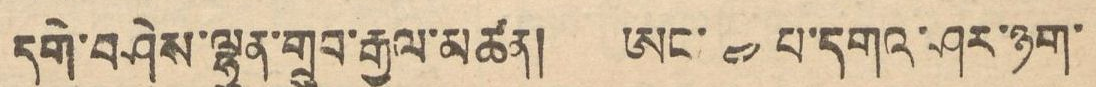དེག་བཤེས་ལྷུན་གྲུབ་རྒྱལ་མཚན། ཨང་ ༤ པ་དགའ་ཤར་ཉག་
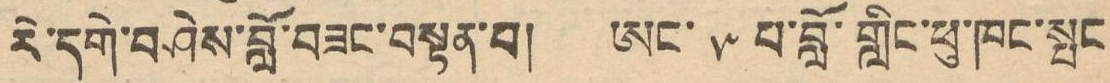རེ་དགེ་བཤེས་བློ་བཟང་བསྟན་བ། ཨང་ ༥ པ་བློ་གླིང་ཕུ་ཁང་སྤང
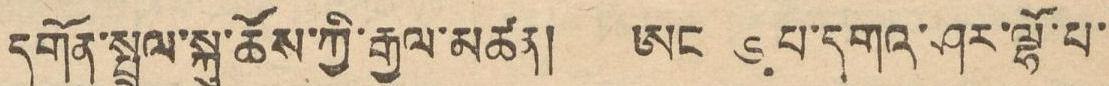དགོན་སྤྲུལ་སྐུ་ཆོས་ཀྱི་རྒྱལ་མཚན། ཨང་ ༦ པ་དགའ་ཤར་ལྷོ་པ་
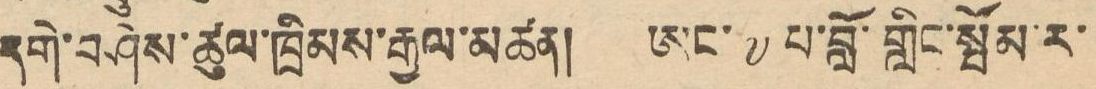དགེ་བཤེས་ཚུལ་ཁྲིམས་རྒྱལ་མཚན། ཨང་ ༧ པ་བློ་གླིང་སྤོམ་ར་
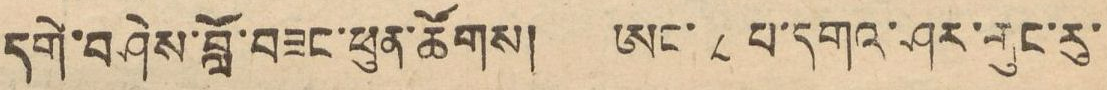དགེ་བཤེས་བློ་བཟང་ཕུན་ཚོགས། ཨང་ ༨ པ་དགའ་ཤར་གུང་རུ་
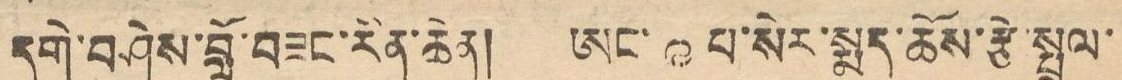དགེ་བཤེས་བློ་བཟང་རིན་ཆེན། ཨང་ ༩ པ་སེར་སྨད་ཆོས་རྩེ་སྤྲུལ་
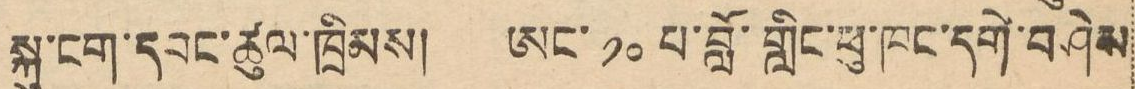སྐུ་ངག་དབང་ཚུལ་ཁྲིམས། ཨང་ ༡༠ པ་བློ་གླིང་ཕུ་ཁང་དགེ་བཤེས
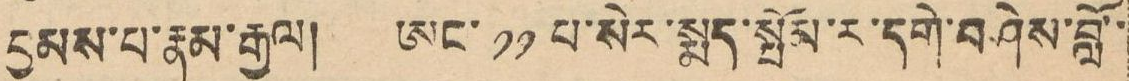བྱམས་པ་རྣམ་རྒྱལ། ཨང་ ༡༡ པ་སེང་སྨད་སྤོམ་ར་དགེ་བཤེས་བློ་་
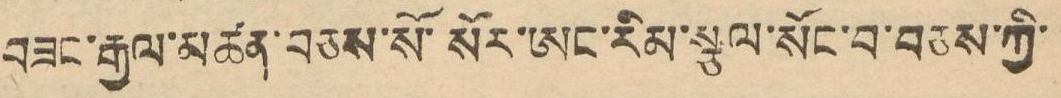བཟང་རྒྱལ་མཚན་བཅས་སོ་སོར་ཨང་རིམ་སྩལ་སོང་བ་བཅས་ཀྱི་
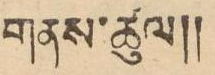གནས་ཚུལ།།
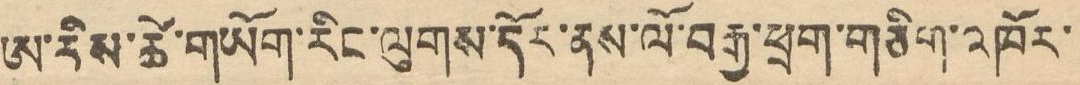ཨ་རིས་ཚེ་གཡོག་རིང་ལུགས་དོར་ནས་ལོ་བརྒྱ་ཕྲག་གཅིག་འཁོར་
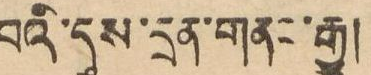བའི་དུས་དྲན་གནང་རྒྱུ།
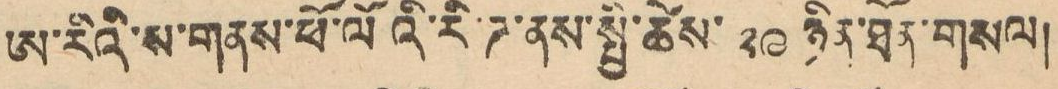ཨ་རིའི་ས་གནས་ཕོ་ལོའི་རི་ཌ་ནས་སྤྱི་ཚེས་ ༢༩ ཉིན་ཐོན་གསལ།
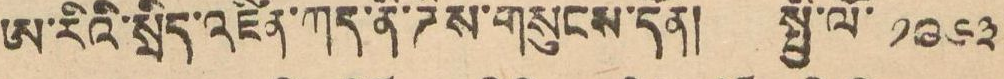ཨ་རིའི་སྲིད་འཛིན་ཀད་ནི་ཌིས་གསུངས་དོན། སྤྱི་ལོ ༡༩༦༣
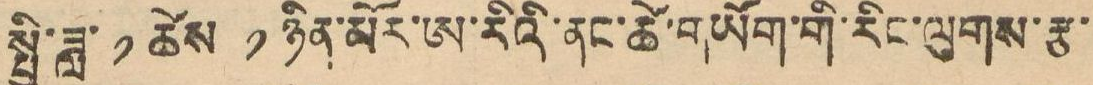སྤྱི་ཟླ་ ༡ ཚེས་ ༡ ཉིན་མོར་ཨ་རིའི་ནང་ཚེ་གཡོག་གི་རིང་ལུགས་རྩ་
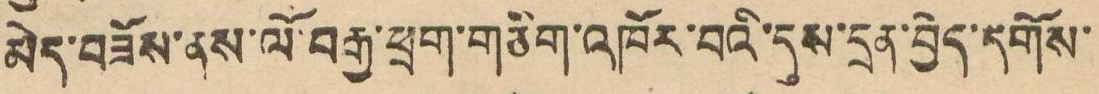མེད་བཟོས་ནས་ལོ་བརྒྱ་ཕྲག་གཅིག་འཁོར་བའི་དུས་དྲན་བྱེད་དགོས་
